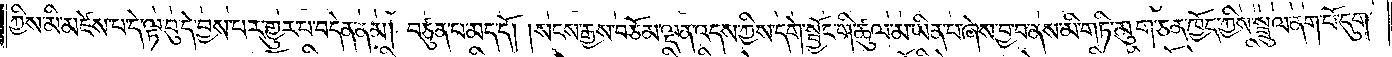ཀྱིས་མི་མཛེས་པ་དེ་ལྟ་བུ་དེ་བྱས་པར་གྱུར་པ་བདེན་ནམ། བཙུན་པ་མད་དོ། །སངས་རྒྱས་བཅོམ་ལྡན་འདས་ཀྱིས་དགེ་སྦྱོང་གི་ཚུལ་མ་ཡིན་པ་ཞེས་བྱ་བ་ནས་མི་གཏི་མུག་ཅན་ཁྱོད་ཀྱིས་སྦྲུལ་ནག་པོ་དུག་
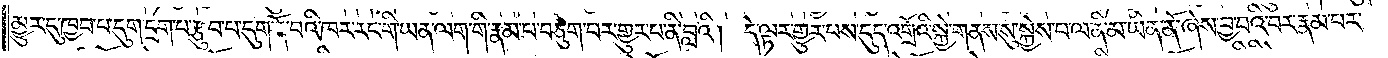མྱུར་དུ་ཁྱབ་པ་དུག་དྲག་པ་རྩུབ་པ་དུག་རྣོ་བའི་ཁར་རང་གི་ཡན་ལག་གི་རྣམ་པ་བཅུག་པར་གྱུར་པ་ནི་བླའི། དེ་ལྟར་གྱུར་པས་དུད་འགྲོའི་སྐྱེ་གནས་སུ་སྐྱེས་པ་ལ་ནི་མ་ཡིན་ནོ་ཞེས་བྱ་བའི་བར་རྣམ་པར་
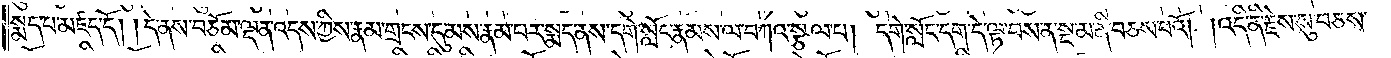སྨད་པ་མཛད་དོ། །དེ་ནས་བཅོམ་ལྡན་འདས་ཀྱིས་རྣམ་གྲངས་དུ་མས་རྣམ་པར་སྨད་ནས་དགེ་སློང་རྣམས་ལ་བཀའ་སྩལ་པ། དགེ་སློང་དག་དེ་ལྟ་བས་ན་སྔ་མ་ནི་བཅས་པའོ། །འདི་ནི་རྗེས་སུ་བཅས་
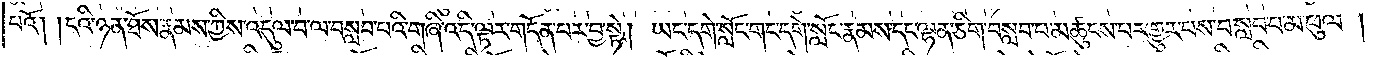པའོ། །ངའི་ཉན་ཐོས་རྣམས་ཀྱིས་འདུལ་བ་ལ་བསླབ་པའི་གཞི་འདི་ལྟར་གདོན་པར་བྱ་སྟེ། ཡང་དགེ་སློང་གང་དགེ་སློང་རྣམས་དང་ལྷན་ཅིག་བསླབ་པ་མཚུངས་པར་གྱུར་པས་བསླབ་པ་མ་ཕུལ།
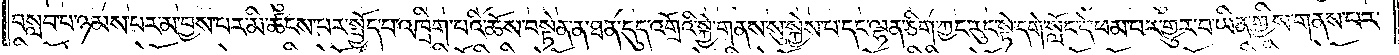བསླབ་པ་ཉམས་པར་མ་བྱས་པར་མི་ཚངས་པར་སྤྱོད་པ་འཁྲིག་པའི་ཆོས་བསྟེན་ན་ཐ་ན་དུད་འགྲོའི་སྐྱེ་གནས་སུ་སྐྱེ་པ་དང་ལྷན་ཅིག་ཀྱང་རུང་སྟེ་དགེ་སློང་དེ་ཕམ་པར་གྱུར་བ་ཡིན་གྱིས་གནས་པར་
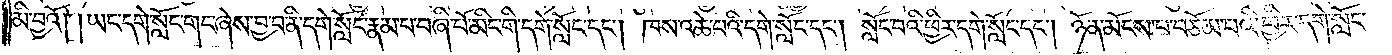མི་བྱའོ། །ཡང་དགེ་སློང་གང་ཞེས་བྱ་བ་ནི་དགེ་སློང་རྣམ་པ་བཞི་པོ་མིང་གི་དགེ་སློང་དང༌། ཁས་འཆེ་བའི་དགེ་སློང་དང༌། སློང་བའི་ཕྱིར་དགེ་སློང་དང༌། ཉོན་མོངས་པ་བཅོམ་པའི་ཕྱིར་དགེ་སློང་
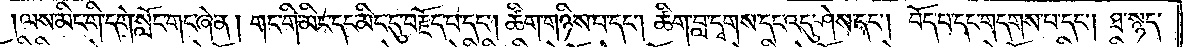།ལས་མིང་གི་དགེ་སློང་གང་ཞེ་ན། གང་གི་མིང་དང་མིང་དུ་བརྗོད་པ་དང༌། ཚིག་གཉིས་པ་དང༌། ཚིག་བླ་དྭགས་དང་འདུ་ཤེས་དང༌། བོད་པ་དང་གདགས་པ་དང༌། ཐ་སྙད་
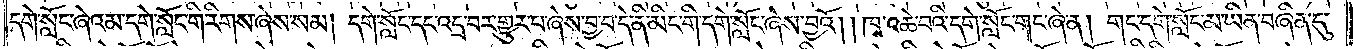དགེ་སློང་ཞེའམ་དགེ་སློང་གི་རིགས་ཞེས་སམ། དགེ་སློང་དང་འདྲ་བར་གྱུར་པ་ཞེས་བྱ་བ་དེ་ནི་མིང་གི་དགེ་སློང་ཞེས་བྱའོ། །ཁ་འཆེ་བའི་དགེ་སློང་གང་ཞེ་ན། གང་དགེ་སློང་མ་ཡིན་བཞིན་དུ་
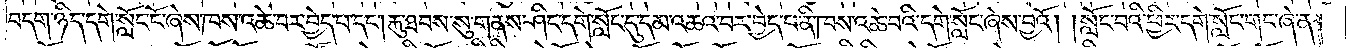བདག་ཉིད་དགེ་སློང་ངོ་ཞེས་ཁས་འཆེ་བར་བྱེད་པ་དང༌།རྐུ་ཐབས་སུ་གནས་ཤིང་དགེ་སློང་དུ་དམ་འཆའ་བར་བྱེད་པ་ནི་ཁས་འཆེ་བའི་དགེ་སློང་ཞེས་བྱའོ། །སློང་བའི་ཕྱིར་དགེ་སློང་གང་ཞེ་ན།
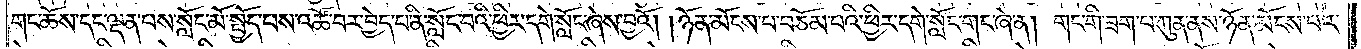གང་ཆོས་དང་ལྡན་པས་སློང་མོ་སྤྱོད་པས་འཚོ་བར་བྱེད་པ་ནི་སློང་བའི་ཕྱིར་དགེ་སློང་ཞེས་བྱའོ། །ཉོན་མོངས་པ་བཅོམ་པའི་ཕྱིར་དགེ་སློང་གང་ཞེ་ན། གང་གི་ཟག་པ་ཀུན་ནས་ཉོན་མོངས་པར་
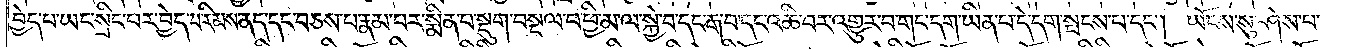བྱེད་པ་ཡང་སྲིང་པར་བྱེད་པ་རིམས་ནད་དང་བཅས་པ་རྣམ་པར་སྨིན་པ་སྡུག་བསྔལ་བ་ཕྱི་མ་ལ་སྐྱེ་བ་དང་རྒ་བ་དང་འཆི་བར་འགྱུར་བ་གང་དག་ཡིན་པ་དེ་དག་སྤངས་པ་དང༌། ཡོངས་སུ་ཤེས་པ་
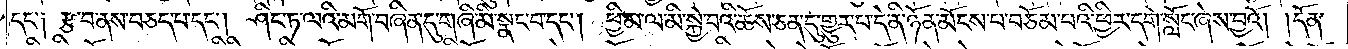དང་༑ རྩ་བ་ནས་བཅད་པ་དང༌། ཤིང་ཏ་ལའི་མགོ་བཞིན་དུ་གཞི་མི་སྣང་བ་དང༌། ཕྱི་མ་ལ་མི་སྐྱེ་བའི་ཆོས་ཅན་དུ་གྱུར་པ་དེ་ནི་ཉོན་མོངས་པ་བཅོམ་པའི་ཕྱིར་དགེ་སློང་ཞེས་བྱའོ། །དོན་
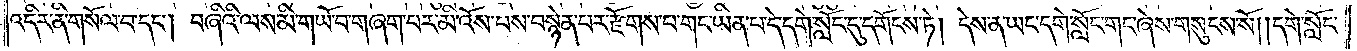འདིར་ནི་གསོལ་བ་དང༌། བཞིའི་ལས་མི་གཡོ་བ་གཞག་པར་མི་འོས་པས་བསྙེན་པར་རྫོགས་པ་གང་ཡིན་པ་དེ་དགེ་སློང་དུ་དགོངས་ཏེ། དེས་ན་ཡང་དགེ་སློང་གང་ཞེས་གསུངས་སོ། །དགེ་སློང་
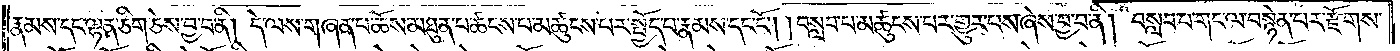རྣམས་དང་ལྷན་ཅིག་ཅེས་བྱ་བ་ནི། དེ་ལས་གཞན་པ་ཆོས་མཐུན་པ་ཚངས་པ་མཚུངས་པར་སྤྱོད་པ་རྣམས་དང་ངོ༌། །བསླབ་པ་མཚུངས་པར་གྱུར་པས་ཞེས་བྱ་བ་ནི། བསླབ་པ་གང་ལ་བསྙེན་པར་རྫོགས་
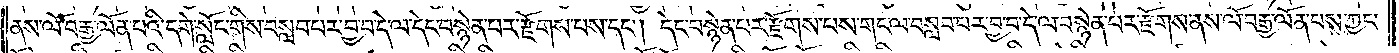ནས་ལོ་བརྒྱ་ལོན་པའི་དགེ་སློང་གིས་བསླབ་པར་བྱ་བ་དེ་ལ་དེང་བསྙེན་པར་རྫོགས་པས་དང༌། དེང་བསྙེན་པར་རྫོགས་པས་གང་ལ་བསླབ་པར་བྱ་བ་དེ་ལ་བསྙེན་པར་རྫོགས་ནས་ལོ་བརྒྱ་ལོན་པས་ཀྱང་
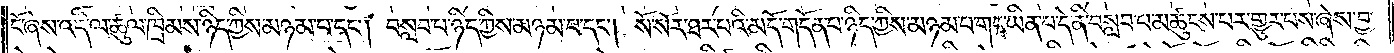ངོ་ཞེས་འདི་ལ་ཚུལ་ཁྲིམས་ཉིད་ཀྱིས་མཉམ་པ་དང༌། བསླབ་པ་ཉིད་ཀྱིས་མཉམ་པ་དང༌། སོ་སོར་ཐར་པའི་མདོ་གདོན་པ་ཉིད་ཀྱིས་མཉམ་པ་གང་ཡིན་པ་དེ་ནི་བསླབ་པ་མཚུངས་པར་གྱུར་པས་ཞེས་བྱ་
